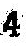4
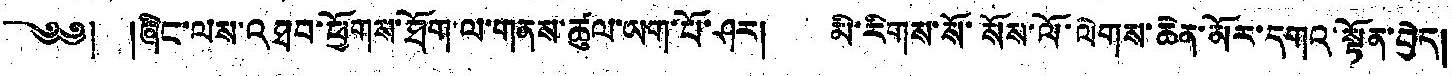༄༅། །ཞིང་ལས་འཐབ་ཕྱོགས་ཐོག་ལ་གནས་ཚུལ་ཡག་པོ་ཤར། མི་རིགས་སོ་སོས་ལོ་ལེགས་ཆེན་མོར་དགའ་སྟོན་བྱེད།
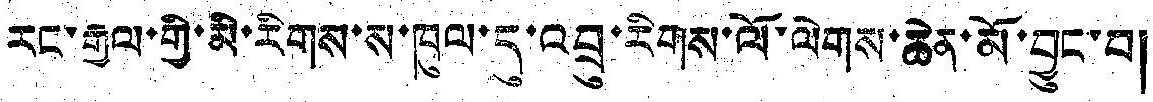རང་རྒྱལ་གྱི་མི་རིགས་ས་ཁུལ་དུ་འབྲུ་རིགས་ལོ་ལེགས་ཆེན་མོ་བྱུང་བ།
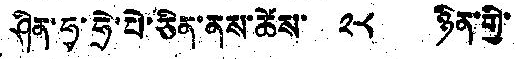ཤིན་ཧྭ་ཧྲེ་པེ་ཅིན་ནས་ཚེས་ ༢༨ ཉིན་གྱི་
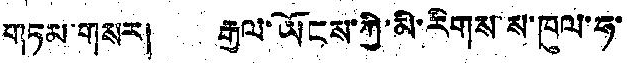གཏམ་གསར། རྒྱལ་ཡོངས་ཀྱི་མི་རིགས་ས་ཁུལ་ཧ་
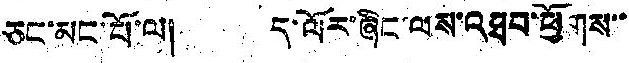ཅང་མང་པོ་ལ། ད་ལོར་ཞིང་ལས་འཐབ་ཕྱོགས་་
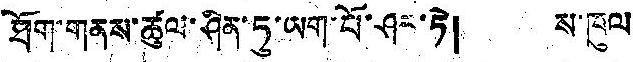ཐོག་གནས་ཚུལ་ཤིན་ཏུ་ཡག་པོ་ཤར་ཏེ། ས་ཁུལ
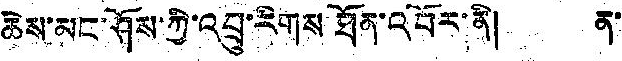ཆེས་མང་ཤོས་ཀྱི་འབྲུ་རིགས ཐོན་འབོར་ནི། ན་
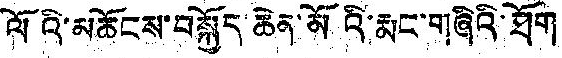ལོའི་མཆོངས་བསྐྱོད ཆེན་མོའི་རྨང་གཞིའི་ཐོག
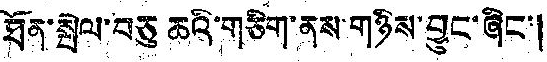ཐོན་སྤེལ་བཅུ ཆའི་གཅིག་ནས་གཉིས་བྱུང་ཞིང་།
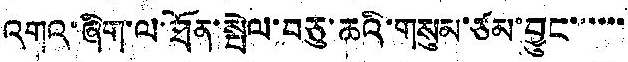འགའ་ཞིག་ལ་ཐོན་སྤེལ་བཅུ་ཆའི་གསུམ་ཙམ་བྱུང་་་་་་
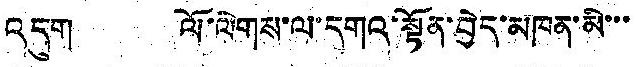འདུག ལོ་ལེགས་ལ་དགའ་སྟོན་བྱེད་མཁན་མི་་་
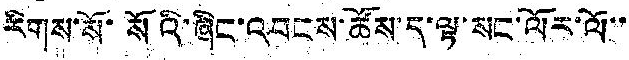རིགས་སོ་སོའི་ཞིང་འབངས་ཚོས་ད་ལྟ་སང་ལོར་ལོ་་
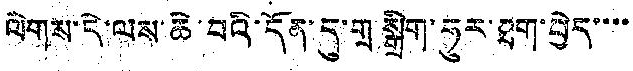ལེགས་དེ་ལས་ཆེ་བའི་དོན་དུ་གྲ་སྒྲིག་ཧུར་ཐག་བྱེད་་་་
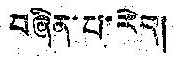བཞིན་པ་རེད།
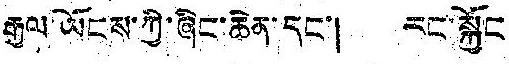རྒྱལ ཡོངས་ཀྱི་ཞིང་ཆེན་དང་། རང་སྐྱོང
